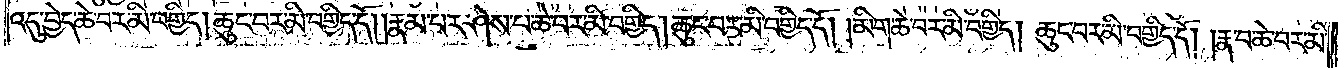འདུ་བྱེད་ཆེ་བར་མི་བགྱིད། ཆུང་བར་མི་བགྱིད་དོ། །རྣམ་པར་ཤེས་པ་ཆེ་བར་མི་བགྱིད། ཆུང་བར་མི་བགྱིད་དོ། །མིག་ཆེ་བར་མི་བགྱིད། ཆུང་བར་མི་བགྱིད་དོ། །རྣ་བ་ཆེ་བར་མི་
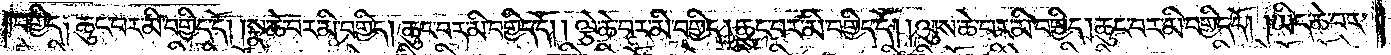བགྱིད༑ ཆུང་བར་མི་བགྱིད་དོ། །སྣ་ཆེ་བར་མི་བགྱིད། ཆུང་བར་མི་བགྱིད་དོ། །ལྕེ་ཆེ་བར་མི་བགྱིད། ཆུང་བར་མི་བགྱིད་དོ། །ལུས་ཆེ་བར་མི་བགྱིད། ཆུང་བར་མི་བགྱིད་དོ། །ཡིད་ཆེ་བར་
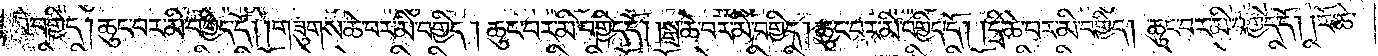མི་བགྱིད། ཆུང་བར་མི་བགྱིད་དོ། །གཟུགས་ཆེ་བར་མི་བགྱིད། ཆུང་བར་མི་བགྱིད་དོ། །སྒྲ་ཆེ་བར་མི་བགྱིད། ཆུང་བར་མི་བགྱིད་དོ། །དྲི་ཆེ་བར་མི་བགྱིད། ཆུང་བར་མི་བགྱིད་དོ། །རོ་ཆེ་
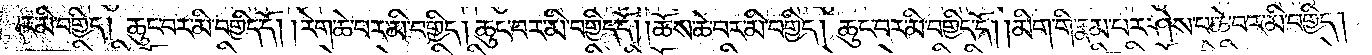བར་མི་བགྱིད་ཆུང༌། ཆུང་བར་མི་བགྱིད་དོ། །རེག་ཆེ་བར་མི་བགྱིད་ཆུང་བར་མི་བགྱིད་དོ། །ཆོས་ཆེ་བར་མི་བགྱིད། ཆུང་བར་མི་བགྱིད་དོ། །མིག་གི་རྣམ་པར་ཤེས་པ་ཆེ་བར་མི་བགྱིད།
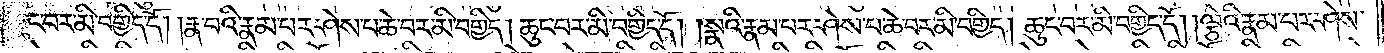ཆུང་བར་མི་བགྱིད་དོ། །རྣ་བའི་རྣམ་པར་ཤེས་པ་ཆེ་བར་མི་བགྱིད། ཆུང་བར་མི་བགྱིད་དོ། །སྣའི་རྣམ་པར་ཤེས་པ་ཆེ་བར་མི་བགྱིད། ཆུང་བར་མི་བགྱིད་དོ། །ལྕེའི་རྣམ་པར་ཤེས་
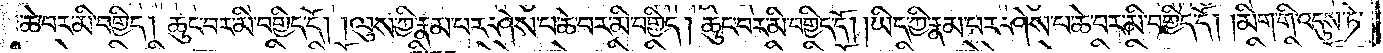པ་ཆེ་བར་མི་བགྱིད། ཆུང་བར་མི་བགྱིད་དོ། །ལུས་ཀྱི་རྣམ་པར་ཤེས་པ་ཆེ་བར་མི་བགྱིད། ཆུང་བར་མི་བགྱིད་དོ། །ཡིད་ཀྱི་རྣམ་པར་ཤེས་པ་ཆེ་བར་མི་བགྱིད། །མིག་གི་འདུས་ཏེ་
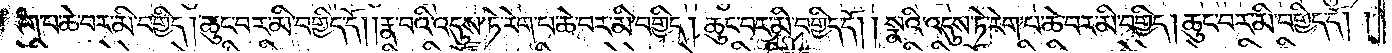རེག་པ་ཆེ་བར་མི་བགྱིད། ཆུང་བར་མི་བགྱིད་དོ། །རྣ་བའི་འདུས་ཏེ་རེག་པ་ཆེ་བར་མི་བགྱིད། ཆུང་བར་མི་བགྱིད་དོ། །སྣའི་འདུས་ཏེ་རེག་པ་ཆེ་བར་མི་བགྱིད། ཆུང་བར་མི་བགྱིད་དོ། །
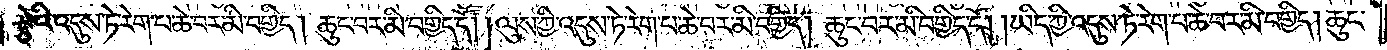ལྕེའི་འདུས་ཏེ་རེག་པ་ཆེ་བར་མི་བགྱིད། ཆུང་བར་མི་བགྱིད་དོ། །ལུས་ཀྱི་འདུས་ཏེ་རེག་པ་ཆེ་བར་མི་བགྱིད། ཆུང་བར་མི་བགྱིད་དོ། །ཡིད་ཀྱི་འདུས་ཏེ་རེག་པ་ཆེ་བར་མི་བགྱིད། ཆུང་
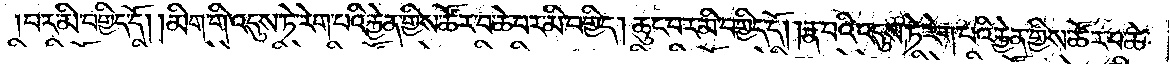བར་མི་བགྱིད་དོ། །མིག་གི་འདུས་ཏེ་རེག་པའི་རྐྱེན་གྱིས་ཚོར་བ་ཆེ་བར་མི་བགྱིད། ཆུང་བར་མི་བགྱིད་དོ། །རྣ་བའི་འདུས་ཏེ་རེག་པའི་རྐྱེན་གྱིས་ཚོར་བ་ཆེ་
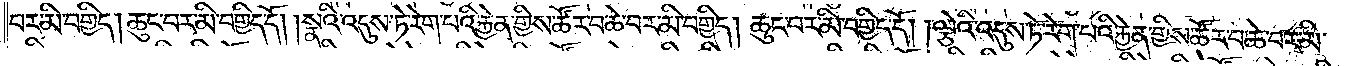བར་མི་བགྱིད། ཆུང་བར་མི་བགྱིད་དོ། །སྣའི་འདུས་ཏེ་རེག་པའི་རྐྱེན་གྱིས་ཚོར་བ་ཆེ་བར་མི་བགྱིད། ཆུང་བར་མི་བགྱིད་དོ། །ལྕེའི་འདུས་ཏེ་རེག་པའི་རྐྱེན་གྱིས་ཚོར་བར་ཆེ་བར་མི་
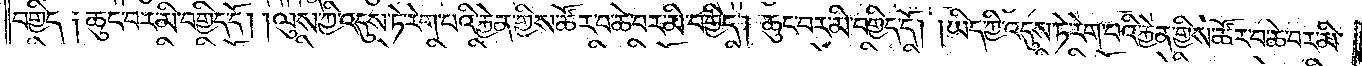བགྱིད༑ ཆུང་བར་མི་བགྱིད་དོ། །ལུས་ཀྱི་འདུས་ཏེ་རེག་པའི་རྐྱེན་གྱིས་ཚོར་བ་ཆེ་བར་མི་བགྱིད། ཆུང་བར་མི་བགྱིད་དོ། །ཡིད་ཀྱི་འདུས་ཏེ་རེག་པའི་རྐྱེན་གྱིས་ཚོར་བ་ཆེ་བར་མི་
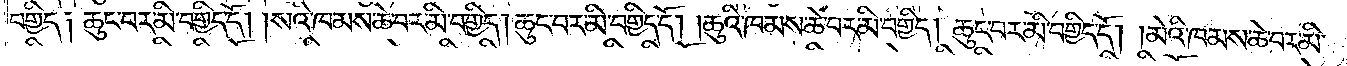བགྱིད༑ ཆུང་བར་མི་བགྱིད་དོ། །སའི་ཁམས་ཆེ་བར་མི་བགྱིད། ཆུང་བར་མི་བགྱིད་དོ། །ཆུའི་ཁམས་ཆེ་བར་མི་བགྱིད། ཆུང་བར་མི་བགྱིད་དོ། །མེའི་ཁམས་ཆེ་བར་མི་
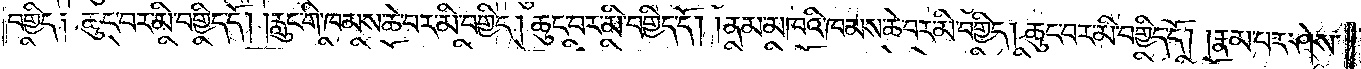བགྱིད༑ ཆུང་བར་མི་བགྱིད་དོ། །རླུང་གི་ཁམས་ཆེ་བར་མི་བགྱིད། ཆུང་བར་མི་བགྱིད་དོ། །ནམ་མཁའི་ཁམས་ཆེ་བར་མི་བགྱིད། ཆུང་བར་མི་བགྱིད་དོ། །རྣམ་པར་ཤེས་
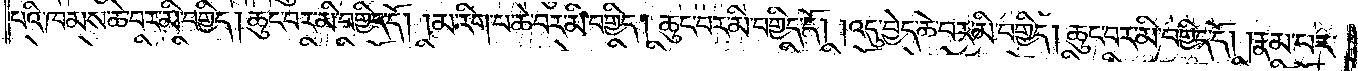པའི་ཁམས་ཆེ་བར་མི་བགྱིད། ཆུང་བར་མི་བགྱིད་དོ། །མ་རིག་པ་ཆེ་བར་མི་བགྱིད། ཆུང་བར་མི་བགྱིད་དོ། །འདུ་བྱེད་ཆེ་བར་མི་བགྱིད། ཆུང་བར་མི་བགྱིད་དོ། །རྣམ་པར་
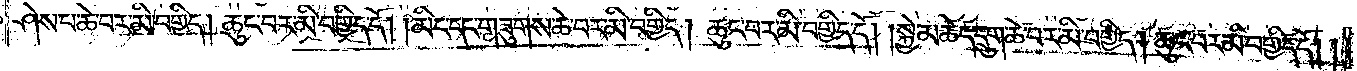ཤེས་པ་ཆེ་བར་མི་བགྱིད། ཆུང་བར་མི་བགྱིད་དོ། །མིང་དང་གཟུགས་ཆེ་བར་མི་བགྱིད། ཆུང་བར་མི་བགྱིད་དོ། །སྐྱེ་མཆེད་དྲུག་ཆེ་བར་མི་བགྱིད། ཆུང་བར་མི་བགྱིད་དོ། །
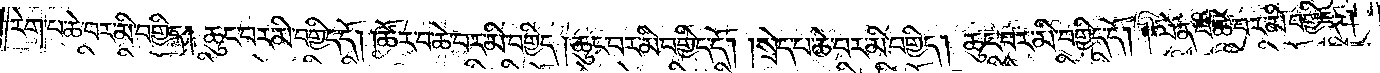རེག་པ་ཆེ་བར་མི་བགྱིད། ཆུང་བར་མ་བགྱིད་དོ། །ཚོར་བ་ཆེ་བར་མི་བགྱིད། ཆུང་བར་མི་བགྱིད་དོ། །སྲེད་པ་ཆེ་བར་མི་བགྱིད། ཆུང་བར་མི་བགྱིད་དོ། །ལེན་པ་ཆེ་བར་མི་བགྱིད།
